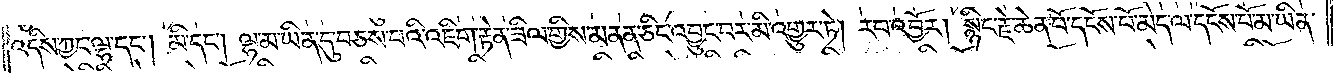འདིས་ཀྱང་ལྷ་དང༌། མི་དང༌། ལྷ་མ་ཡིན་དུ་བཅས་པའི་འཇིག་རྟེན་ཟིལ་གྱིས་མནན་ཅིང་འབྱུང་བར་མི་འགྱུར་ཏེ། རབ་འབྱོར། སྙིང་རྗེ་ཆེན་པོ་དངོས་པོ་མེད་ལ་དངོས་པོ་མ་ཡིན་
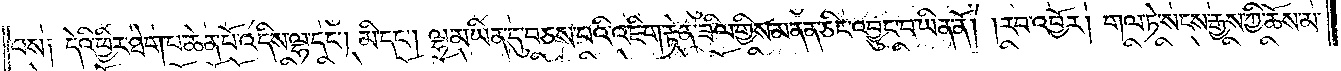པས། དེའི་ཕྱིར་ཐེག་པ་ཆེན་པོ་འདིས་ལྷ་དང༌། མི་དང༌། ལྷ་མ་ཡིན་དུ་བཅས་པའི་འཇིག་རྟེན་ཟིལ་གྱིས་མནན་ཅིང་འབྱུང་བ་ཡིན་ནོ། །རབ་འབྱོར། གལ་ཏེ་སངས་རྒྱས་ཀྱི་ཆོས་མ་
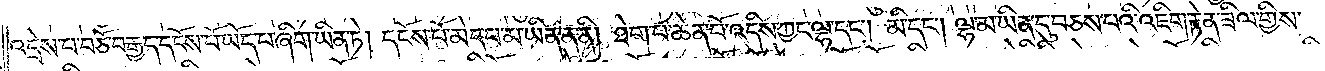འདྲེས་པ་བཅོ་བརྒྱད་དངོས་པོ་ཡོད་པ་ཞིག་ཡིན་ཏེ། དངོས་པོ་མེད་པ་མ་ཡིན་ན་ནི། ཐེག་པ་ཆེན་པོ་འདིས་ཀྱང་ལྷ་དང༌། མི་དང༌། ལྷ་མ་ཡིན་དུ་བཅས་པའི་འཇིག་རྟེན་ཟིལ་གྱིས་
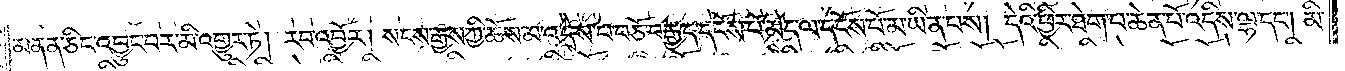མནན་ཅིང་འབྱུང་བར་མི་འགྱུར་ཏེ། རབ་འབྱོར། སངས་རྒྱས་ཀྱི་ཆོས་མ་འདྲེས་པ་བཅོ་བརྒྱད་དངོས་པོ་མེད་ལ་དངོས་པོ་མ་ཡིན་པས། དེའི་ཕྱིར་ཐེག་པ་ཆེན་པོ་འདིས་ལྷ་དང༌། མི་
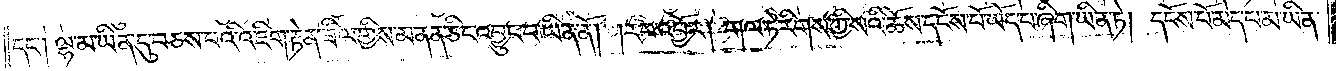དང༌། ལྷ་མ་ཡིན་དུ་བཅས་པའི་འཇིག་རྟེན་ཟིལ་གྱིས་མནན་ཅིང་འབྱུང་བ་ཡིན་ནོ། །རབ་འབྱོར། གལ་ཏེ་རིགས་ཀྱི་སའི་ཆོས་དངོས་པོ་ཡོད་པ་ཞིག་ཡིན་ཏེ། དངོས་པོ་མེད་པ་མ་ཡིན་
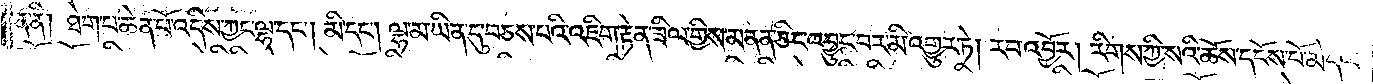ན་ནི། ཐེག་པ་ཆེན་པོ་འདིས་ཀྱང་ལྷ་དང༌། མི་དང༌། ལྷ་མ་ཡིན་དུ་བཅས་པའི་འཇིག་རྟེན་ཟིལ་གྱིས་མནན་ཅིང་འབྱུང་བར་མི་འགྱུར་ཏེ། །རབ་འབྱོར། རིགས་ཀྱི་སའི་ཆོས་དངོས་པོ་མེད་ལ་
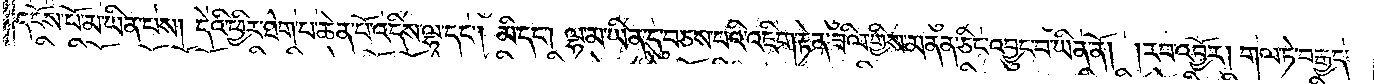དངོས་པོ་མ་ཡིན་པས། དེའི་ཕྱིར་ཐེག་པ་ཆེན་པོ་འདིས་ལྷ་དང༌། མི་དང༌། ལྷ་མ་ཡིན་དུ་བཅས་པའི་འཇིག་རྟེན་ཟིལ་གྱིས་མནན་ཅིང་འབྱུང་བ་ཡིན་ན། །རབ་འབྱོར། གལ་ཏེ་བརྒྱད་
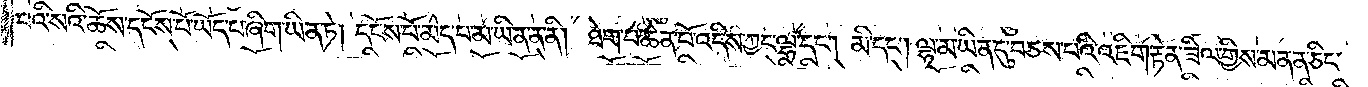པའི་སའི་ཆོས་དངོས་པོ་ཡོད་པ་ཞིག་ཡིན་ཏེ་དངོས་པོ་མེད་པ་མ་ཡིན་ན་ནི། ཐེག་པ་ཆེན་པོ་འདིས་ཀྱང་ལྷ་དང༌། མི་དང༌། ལྷ་མ་ཡིན་དུ་བཅས་པའི་འཇིག་རྟེན་ཟིལ་གྱིས་མནན་ཅིང་
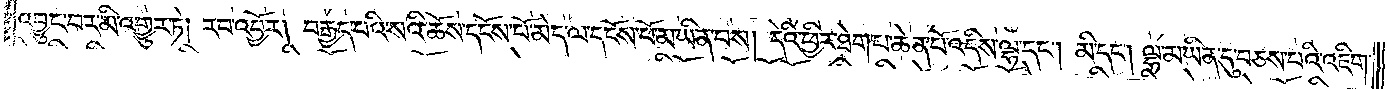འབྱུང་བར་མི་འགྱུར་ཏེ། རབ་འབྱོར། བརྒྱད་པའི་སའི་ཆོས་དངོས་པོ་མེད་ལ་དངོས་པོ་མ་ཡིན་པས། དེའི་ཕྱིར་ཐེག་པ་ཆེན་པོ་འདིས་ལྷ་དང༌། མི་དང༌། ལྷ་མ་ཡིན་དུ་བཅས་པའི་འཇིག་
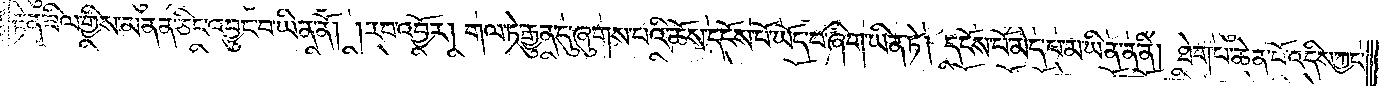རྟེན་ཟིལ་གྱིས་མནན་ཅིང་འབྱུང་བ་ཡིན་ནོ། །རབ་འབྱོར། གལ་ཏེ་རྒྱུན་དུ་ཞུགས་པའི་ཆོས་དངོས་པོ་ཡོད་པ་ཞིག་ཡིན་ཏེ། དངོས་པོ་མེད་པ་མ་ཡིན་ན་ནི། ཐེག་པ་ཆེན་པོ་འདིས་ཀྱང་
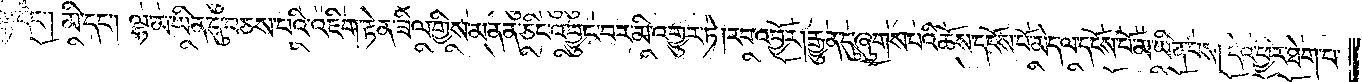ལྷ་དང༌། མི་དང༌། ལྷ་མ་ཡིན་དུ་བཅས་པའི་འཇིག་རྟེན་ཟིལ་གྱིས་མནན་ཅིང་འབྱུང་བར་མི་འགྱུར་ཏེ། རབ་འབྱོར། རྒྱུན་དུ་ཞུགས་པའི་ཆོས་དངོས་པོ་མེད་ལ་དངོས་པོ་མ་ཡིན་པས། དེའི་ཕྱིར་ཐེག་པ་
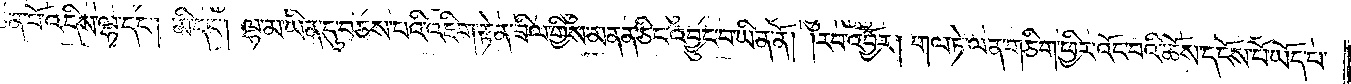ཆེན་པོ་འདིས་ལྷ་དང༌། མི་དང༌། ལྷ་མ་ཡིན་དུ་བཅས་པའི་འཇིག་རྟེན་ཟིལ་གྱིས་མནན་ཅིང་འབྱུང་བ་ཡིན་ནོ། །རབ་འབྱོར། གལ་ཏེ་ལན་ཅིག་ཕྱིར་འོང་བའི་ཆོས་དངོས་པོ་ཡོད་པ་
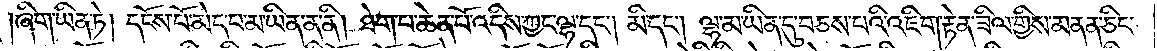ཞིག་ཡིན་ཏེ། དངོས་པོ་མེད་པ་མ་ཡིན་ན་ནི། ཐེག་པ་ཆེན་པོ་འདིས་ཀྱང་ལྷ་དང༌། མི་དང༌། ལྷ་མ་ཡིན་དུ་བཅས་པའི་འཇིག་རྟེན་ཟིལ་གྱིས་མནན་ཅིང་
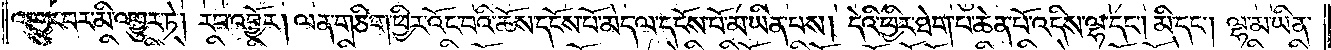འབྱུང་བར་མི་འགྱུར་ཏེ། རབ་འབྱོར་ལན་ཅིག་ཕྱིར་འོང་བའི་ཆོས་དངོས་པོ་མེད་ལ་དངོས་པོ་མ་ཡིན་པས། དེའི་ཕྱིར་ཐེག་པ་ཆེན་པོ་འདིས་ལྷ་དང༌། མི་དང༌། ལྷ་མ་ཡིན་
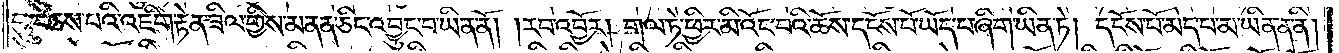དུ་བཅས་པའི་འཇིག་རྟེན་ཟིལ་གྱིས་མནན་ཅིང་འབྱུང་བ་ཡིན་ནོ། །རབ་འབྱོར། གལ་ཏེ་ཕྱིར་མི་འོང་བའི་ཆོས་དངོས་པོ་ཡོད་པ་ཞིག་ཡིན་ཏེ། དངོས་པོ་མེད་པ་མ་ཡིན་ན་ནི།
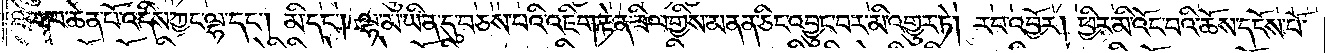ཐེག་པ་ཆེན་པོ་འདིས་ཀྱང་ལྷ་དང༌། མི་དང༌། ལྷ་མ་ཡིན་དུ་བཅས་པའི་འཇིག་རྟེན་ཟིལ་གྱིས་མནན་ཅིང་འབྱུང་བར་མི་འགྱུར་ཏེ། རབ་འབྱོར། ཕྱིར་མི་འོང་བའི་ཆོས་དངོས་པོ་
